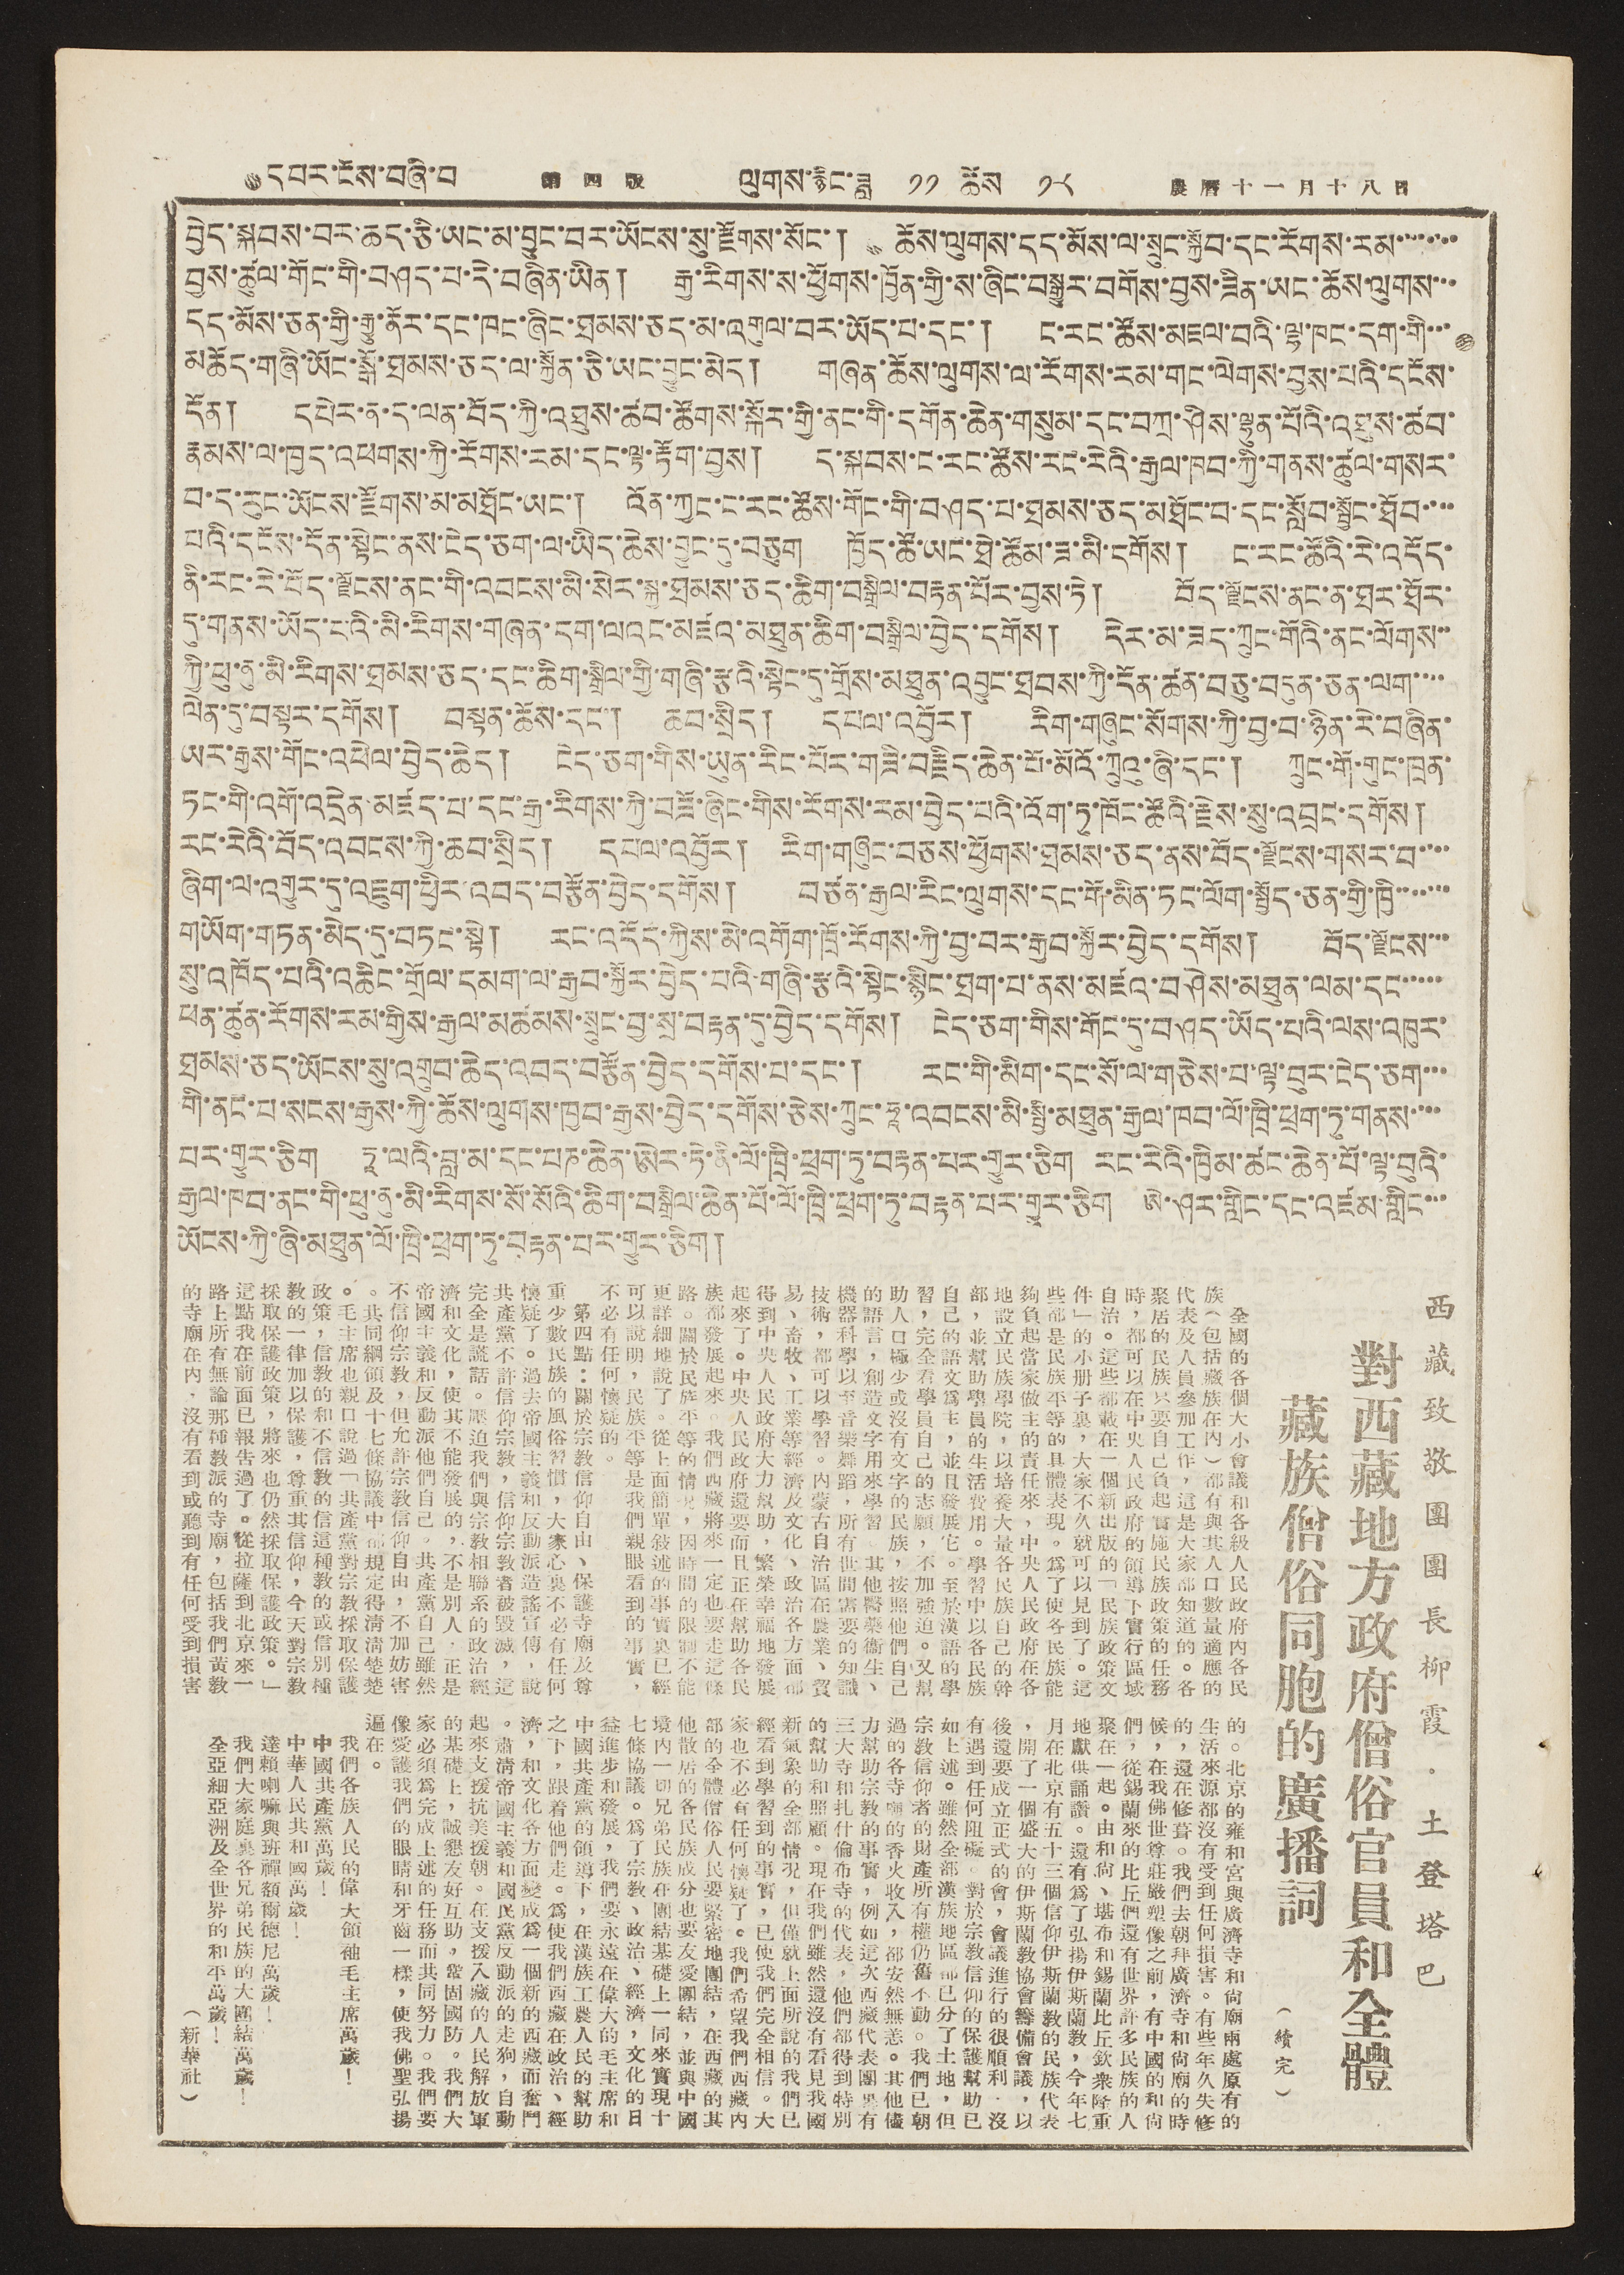དཔར་ངོས་བཞི་པ 第 四 版 ལུགས་རྙིང་ཟླ ༡༡ ཚེས ༡༨ 農 曆 十一 月 十 八 日
བྱེད་སྐབས་བར་ཆད་ཅི་ཡང་མ་བྱུང་བར་ཡོངས་སུ་རྫོགས་སོང་། ཆོས་ལུགས་དད་མོས་ལ་སྲུང་སྐྱོབ་དང་རོགས་རམ་་་་་་་་
བྱས་ཚུལ་གོང་གི་བཤད་པ་དེ་བཞིན་ཡིན། རྒྱ་རིགས་ས་ཕྱོགས་ཁྱོན་གྱི་ས་ཞིང་བསྒྱུར་བགོས་བྱས་ཟིན་ཡང་ཆོས་ལུགས་་་
དད་མོས་ཅན་གྱི་རྒྱུ་ནོར་དང་ཁང་ཞིང་ཐམས་ཅད་མ་འགུལ་བར་ཡོད་པ་དང་། ང་རང་ཚོས་མཇལ་བའི་ལྷ་ཁང་དག་གི་་་
མཆོད་གཞི་ཡོང་སྒོ་ཐམས་ཅད་ལ་སྐྱོན་ཅི་ཡང་བྱུང་མེད། གཞན་ཆོས་ལུགས་ལ་རོགས་རམ་གང་ལེགས་བྱས་པའི་དངོས་
དོན། དཔེར་ན་ད་ལན་བོད་ཀྱི་འཐུས་ཚབ་ཚོགས་སྐོར་གྱི་ནང་གི་དགོན་ཆེན་གསུམ་དང་བཀྲ་ཤིས་ལྷུན་པོའི་འཐུས་ཚབ་
རྣམས་ལ་ཁྱད་འཕགས་ཀྱི་རོགས་རམ་དང་ལྟ་རྟོག་བྱས། ད་སྐབས་ང་རང་ཚོས་རང་རེའི་རྒྱལ་ཁབ་ཀྱི་གནས་ཚུལ་གསར་
བ་ད་རུང་ཡོངས་རྫོགས་མ་མཐོང་ཡང་། འོན་ཀྱང་ང་རང་ཚོས་གོང་གི་བཤད་པ་ཐམས་ཅད་མཐོང་བ་དང་སློབ་སྦྱོང་ཐོབ་་་་
པའི་དངོས་དོན་སྟེང་ནས་ངེད་ཅག་ལ་ཡིད་ཆེས་བྱུང་དུ་བཅུག ཁྱོད་ཚོ་ཡང་ཐེ་ཚོམ་ཟ་མི་དགོས། ང་རང་ཚོའི་རེ་འདོད་
ནི་རང་རེ་བོད་ལྗོངས་ནང་གི་འབངས་མི་སེར་སྐྱ་ཐམས་ཅད་ཆིག་བསྒྲིལ་བརྟན་པོར་བྱས་ཏེ། བོད་ལྗོངས་ནང་ན་ཐར་ཐོར་
དུ་གནས་ཡོད་པའི་མི་རིགས་གཞན་དག་ལའང་མཛའ་མཐུན་ཆིག་བསྒྲིལ་བྱེད་དགོས། དེར་མ་ཟད་ཀྲུང་གོའི་ནང་ལོགས་་
ཀྱི་ཕུ་ནུ་མི་རིགས་ཐམས་ཅད་དང་ཆིག་སྒྲིལ་གྱི་གཞི་རྩའི་སྟེང་དུ་གྲོས་མཐུན་འབྱུང་ཐབས་ཀྱི་དོན་ཚན་བཅུ་བདུན་ཅན་ལག་་་་
ལེན་དུ་བསྟར་དགོས། བསྟན་ཆོས་དང་། ཆབ་སྲིད། དཔལ་འབྱོར། རིག་གཞུང་སོགས་ཀྱི་བྱ་བ་ཉིན་རེ་བཞིན་
ཡར་རྒྱས་གོང་འཕེལ་བྱེད་ཆེད། ངེད་ཅག་གིས་ཡུན་རིང་པོར་གཟི་བརྗིད་ཆེན་པོ་མོའོ་ཀྲུའུ་ཞི་དང་། ཀྲུང་གོ་གུང་ཁྲན་
ཏང་གི་འགོ་འདྲེན་མཛད་པ་དང་རྒྱ་རིགས་ཀྱི་བཟོ་ཞིང་གིས་རོགས་རམ་བྱེད་པའི་འོག་ཏུ་ཁོང་ཚོའི་རྗེས་སུ་འབྲང་དགོས།
རང་རེའི་བོད་འབངས་ཀྱི་ཆབ་སྲིད། དཔལ་འབྱོར། རིག་གཞུང་བཅས་ཕྱོགས་ཐམས་ཅད་ནས་བོད་ལྗོངས་གསར་བ་་་་
ཞིག་ལ་འགྱུར་དུ་འཇུག་ཕྱིར་འབད་བརྩོན་བྱེད་དགོས། བཙན་རྒྱལ་རིང་ལུགས་དང་གོ་མིན་ཏང་ལོག་སྤྱོད་ཅན་གྱི་ཁྱི་་་་་་་
གཡོག་གཏན་མེད་དུ་བཏང་སྟེ། རང་འདོད་ཀྱིས་མེ་འགོག་ཁྲོ་རོགས་ཀྱི་བྱ་བར་རྒྱབ་སྐྱོར་བྱེད་དགོས། བོད་ལྗོངས་་་
སུ་འཁོད་པའི་འཆིང་གྲོལ་དམག་ལ་རྒྱབ་སྐྱོར་བྱེད་པའི་གཞི་རྩའི་སྟེང་སྙིང་ཐག་པ་ནས་མཛའ་བཤེས་མཐུན་ལམ་དང་་་་་
ཕན་ཚུན་རོགས་རམ་གྱིས་རྒྱལ་མཚམས་སྲུང་བྱ་སྲ་བརྟན་དུ་བྱེད་དགོས། ངེད་ཅག་གིས་གོང་དུ་བཤད་ཡོད་པའི་ལས་འཁུར་
ཐམས་ཅད་ཡོངས་སུ་འགྲུབ་ཆེད་འབད་བརྩོན་བྱེད་དགོས་པ་དང་། རང་གི་མིག་དང་སོ་ལ་གཅེས་པ་ལྟ་བུར་ངེད་ཅག་་་
གི་ནང་བ་སངས་རྒྱས་ཀྱི་ཆོས་ལུགས་ཁྱབ་རྒྱས་བྱེད་དགོས་ཅེས་ཀྲུང་ཧཱ་འབངས་མི་སྤྱི་མཐུན་རྒྱལ་ཁབ་ལོ་ཁྲི་ཕྲག་ཏུ་གནས་་་་
པར་གྱུར་ཅིག ཏཱ་ལའི་བླ་མ་དང་པཎ་ཆེན་ཨེར་ཏེ་ནི་ལོ་ཁྲི་ཕྲག་ཏུ་བརྟན་པར་གྱུར་ཅིག རང་རེའི་ཁྱིམ་ཚང་ཆེན་པོ་ལྟ་བུའི་
རྒྱལ་ཁབ་ནང་གི་ཕུ་ནུ་མི་རིགས་སོ་སོའི་ཆིག་བསྒྲིལ་ཆེན་པོ་ལོ་ཁྲི་ཕྲག་ཏུ་བརྟན་པར་གྱུར་ཅིག ཨེ་ཤར་གླིང་དང་འཛམ་གླིང་་་
ཡོངས་ཀྱི་ཞི་མཐུན་ལོ་ཁྲི་ཕྲག་ཏུ་བརྟན་པར་གྱུར་ཅིག།
西藏致敬團團長柳霞・土登塔巴
對西藏地方政府僧俗官員和全體
藏族僧俗同胞的廣播詞
（續完）
全國的各個大小會議和各級人民政府內各民
族（包括藏族在內）都有與其人口數量適應的
代表及人員參加工作，這是大家都知道的。各
聚居的民族只要自己負起實施民族政策的任務
時，都可以在中央人民政府的領導下實行區域
自治。這些都載在一個新出版的「民族政策文
件」的小冊子裏，大家不久就可以見到了。這
些都是民族平等的具體表現。爲了使各民族能
夠負起當家作主的責任來，中央人民政府在各
地設立民族學院，以培養大量各民族自己的幹
部，並幫助學員的生活費用。學習中以各民族
自己的語文爲主，並且發展它。至於漢語的學
習，完全看學員自己的志願，不加強迫。又幫
助人口極少或沒有文字的民族，按照他們自己
的語言，創造文字用來學習。其他醫藥衛生、
機器科學以至音樂舞蹈，所有世間需要的知識
技術，都可以學習。內蒙古自治區在農業、貿
易、畜牧、工業等經濟及文化、政治各方面都
得到中央人民政府大力幫助，繁榮幸福地發展
起來了。中央人民政府還要而且正在幫助各民
族都發展起來。我們西藏將來一定也要走這條
路。關於民族平等的情況，因時間的限制不能
更詳細地說了。從上面簡單敍述的事實裏已經
可以說明，民族平等是我們親眼看到的事實，
不必有任何懷疑的。
第四點：關於宗教信仰自由、保護寺廟及尊
重少數民族的風俗習慣，大家心裏不必有任何
懷疑了。過去帝國主義和反動派造謠宣傳，說
共產黨不許信仰宗教，信仰宗教者被毀滅，這
完全是謊話。壓迫我們與宗教相聯繫的政治經
濟和文化，使其不能發展的，不是別人，正是
帝國主義和反動派他們自己。共產黨自己雖然
不信仰宗教，但允許宗教信仰自由，不加妨害
。共同綱領及十七條協議重都規定得清清楚楚
。毛主席也親口說過「共產黨對宗教採取保護
政策，信教的和不信教的信這種教的或信別種
教的一律加以保護，尊重其信仰，今天對宗教
採取保護政策，將來也仍然採取保護政策。」
這點我在前面已報告過了。從拉薩到北京來一
路上所有無論那種教派的寺廟，包括我們黃教
的寺廟在內，沒有看到或通道有任何受到損害
的。北京的雍和宮與廣濟寺和尚廟兩處原有的
生活來源都沒有收到任何損害。有些年久失修
的，還在修葺。我們去朝拜廣濟寺和尚廟的時
候，在我佛世尊莊嚴塑像之前，有中國的和尚
們，從錫蘭來的比丘們還有世界許多民族的人
聚在一起。由和尚、堪布和錫蘭比丘欽衆隆重
地獻供誦讚。還有爲了弘揚伊斯蘭教，今年七
月在北京有五十三個信仰伊斯蘭教的民族代表
，開了一個盛大的伊斯蘭教協會籌備會議，以
後還要成立正式的會，會議進行的很順利，沒
有遇到任何阻礙。對於宗教信仰的保護幫助已
如上述。雖然全部漢族地區都已分了土地，但
宗教信仰者的財產所有權仍舊不動。我們已朝
過的各寺廟的香火收入，都安然無恙。其他儘
力幫助宗教的事實，例如這次西藏代表團裏有
三大寺和札什倫布寺的代表，他們都得到特別
的幫助和照顧。現在我們雖然還沒有看見我國
新氣象的全部情況，但僅就上面所說的我們已
經看到學習到的事實，已使我們完全相信。大
家也不必有任何懷疑了。我們希望我們西藏內
部的全體僧俗人民要緊密地團結，在西藏的其
他散居的各民族成分也要友愛團結，並與中國
境內一切兄弟民族在團結基礎上一同來實現十
七條協議。爲了宗教、政治、經濟，文化的日
益進步和發展，我們要永遠在偉大的毛主席和
中國共產黨的領導下，在漢族工農人民的幫助
之下，跟着他們走。爲使我們西藏在政治、經
濟，和文化各方面變成爲一個新的西藏而奮鬥
。肅清帝國主義和國民黨反動派的走狗，自動
起來支援抗美援朝。在支援入藏的人民解放軍
的基礎上，誠懇友好互助，鞏固國防。我們大
家必須爲完成上述的任務而共同努力。我們要
像愛護我們的眼睛和牙齒一樣，使我佛聖弘揚
遍在。
我們各族人民的偉大領袖毛主席萬歲！
中國共產黨萬歲！
中華人民共和國萬歲！
達賴喇嘛與班禪額爾德尼萬歲！
我們大家庭裏各兄弟民族的大團結萬歲！
全亞細亞洲及全世界的和平萬歲！
（新華社）
